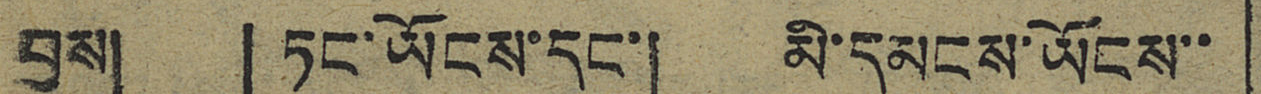བྱས། 「ཏང་ཡོངས་དང་། མི་དམངས་ཡོངས་་
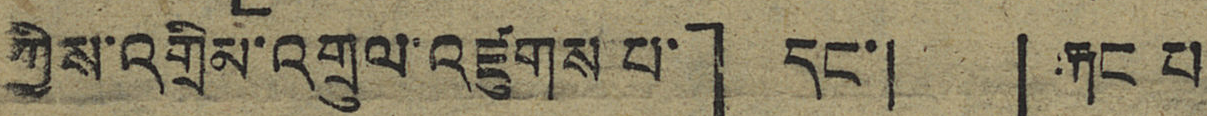ཀྱིས་འགྲིམ་འགྲུལ་འཛུགས་པ་」དང་། 「རྐང་པ
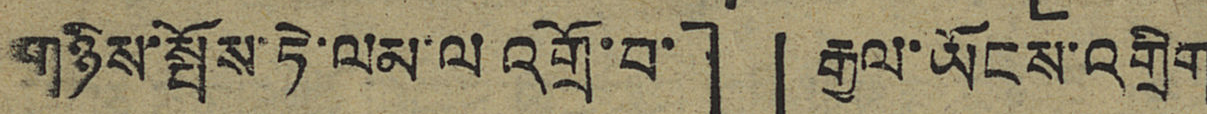གཉིས་སྤོས་ཏེ་ལམ་ལ་འགྲོ་བ་」「རྒྱལ་ཡོངས་འགྲིག
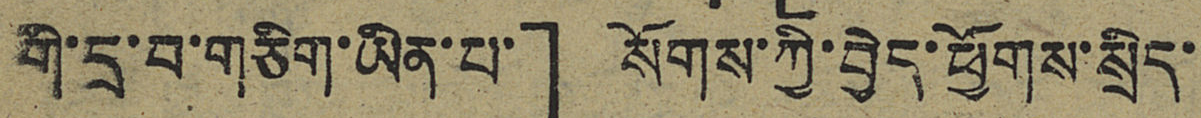གི་དྲ་བ་གཅིག་ཡིན་པ་」སོགས་ཀྱི་བྱེད་ཕྱོགས་སྲིད་་
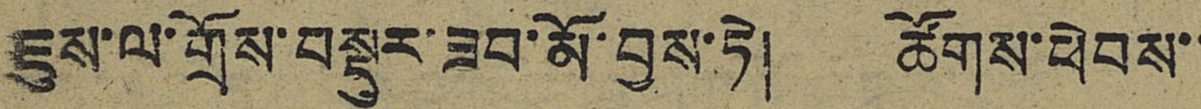ཇུས་ལ་གྲོས་བསྡུར་ཟབ་མོ་བྱས་ཏེ། ཚོགས་ཕེབས་་
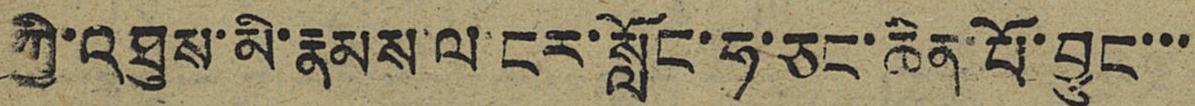ཀྱི་འཐུས་མི་རྣམས་ལ་ངར་སློང་ཧ་ཅང་ཆེན་པོ་བྱུང་་་་
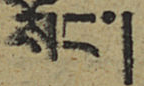སོང་།
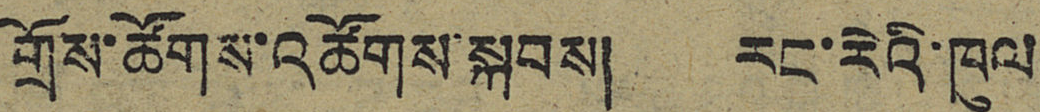གྲོས་ཚོགས་འཚོགས་སྐབས། རང་རེའི་ཁུལ
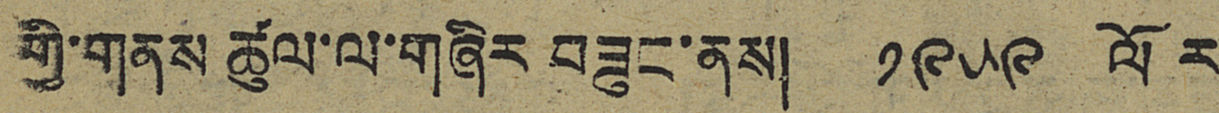གྱི་གནས ཚུལ་ལ་གཞིར བཟུང་ནས། ༡༩༥༩ ལོར
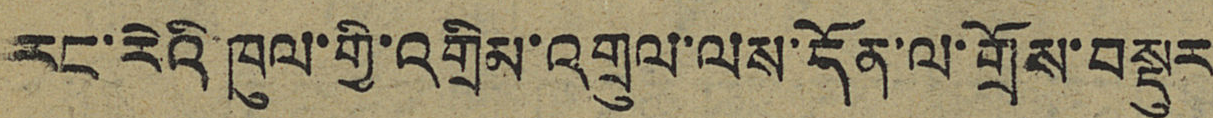རང་རེའི་ཁུལ་གྱི་འགྲིམ་འགྲུལ་ལས་དོན་ལ་གྲོས་བསྡུར
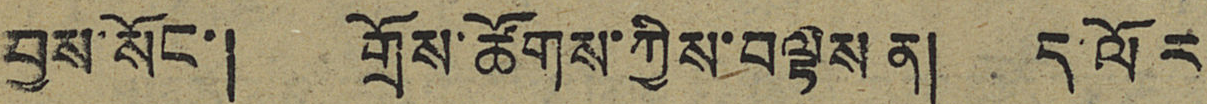བྱས་སོང་། གྲོས་ཚོགས་ཀྱིས་བལྟས ན། ད་ལོར
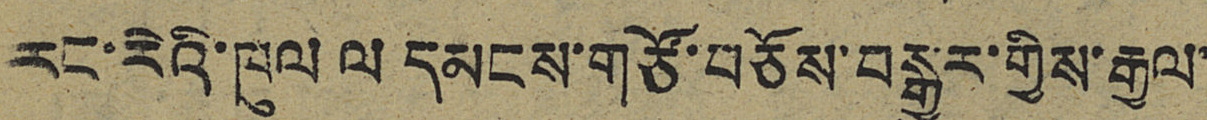རང་རེའི་ཁུལ ལ དམངས་གཙོ་བཅོས་བསྒྱུར་གྱིས་རྒྱལ་
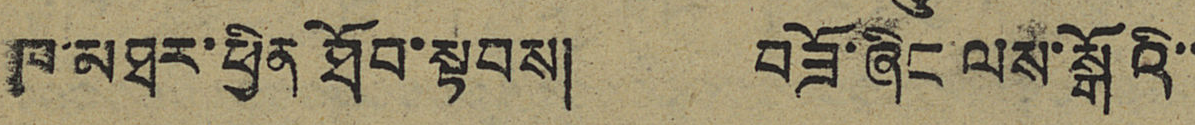ཁ་མཐར་ཕྱིན ཐོབ་སྟབས། བཟོ་ཞིང ལས་སྒོའི་་
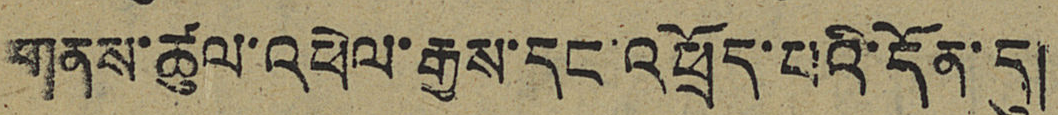གནས་ཚུལ་འཕེལ་རྒྱས་དང་འཕྲོད་པའི་དོན་དུ།
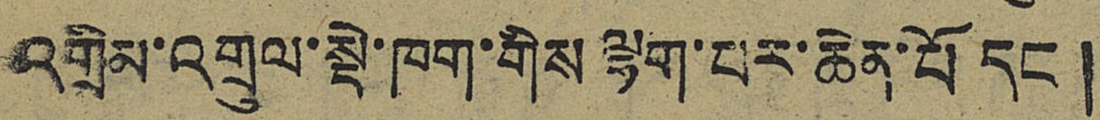འགྲིམ་འགྲུལ་སྡེ་ཁག་གིས་ལྷག་པར་ཆེན་པོ་དང་།
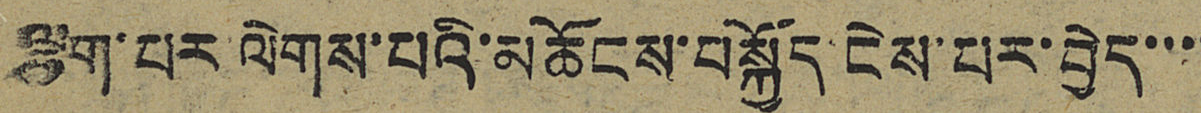ལྷག་པར་ལེགས་པའི་མཆོངས་བསྐྱོད་ངེས་པར་བྱེད་་་་
